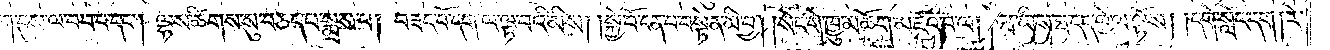དེ་གཉིས་ཀ་དུས་ལ་བབ་པ་དང༌། ལྷས་ཚིགས་སུ་བཅད་པ་སྨྲས་པ། བཟང་པོ་དག་ལ་ལྟ་བའི་མིས། །སྐྱེ་བོ་ངན་པ་བསྟེན་མི་བྱ། །སེང་གེ་ཁྱུ་མཆོག་མཛའ་བ་ལ། །ཝ་ཡིས་ཐ་དད་ཕྱེ་ལ་ལྟོས། །དགེ་སློང་དག །རེ་
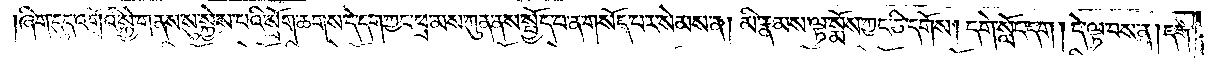ཞིག་དུད་འགྲོའི་སྐྱེ་གནས་སུ་སྐྱེས་པའི་སྲོག་ཆགས་དེ་དག་ཀྱང་ཕྲ་མས་ཀུན་ནས་སྤྱོད་པ་ན་གསོད་པར་སེམས་ན། མི་རྣམས་ལྟ་སྨོས་ཀྱང་ཅི་དགོས། དགེ་སློང་དག །དེ་ལྟ་བས་ན། དགེ་
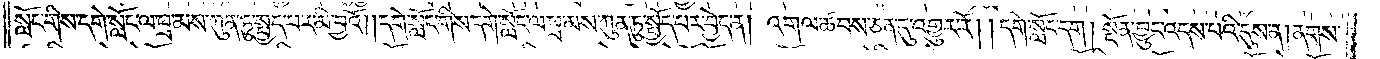སློང་གིས་དགེ་སློང་ལ་ཕྲ་མས་ཀུན་ཏུ་སྤྱད་པར་མི་བྱའོ། །དགེ་སློང་གིས་དགེ་སློང་ལ་ཕྲ་མས་ཀུན་ཏུ་སྤྱོད་པར་བྱེད་ན། འགལ་ཚབས་ཅན་དུ་འགྱུར་རོ། །དགེ་སློང་དག །སྔོན་བྱུང་འདས་པའི་དུས་ན། ནགས་
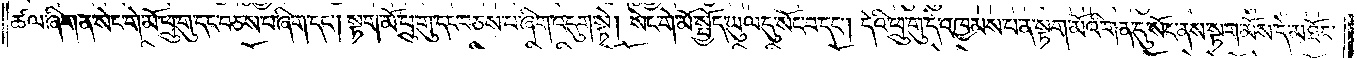ཚལ་ཞིག་ན་སེང་གེ་མོ་ཕྲུ་གུ་དང་བཅས་པ་ཞིག་དང༌། སྟག་མོ་ཕྲུ་གུ་དང་བཅས་པ་ཞིག་འདུག་སྟེ། སེང་གེ་མོ་སྤྱོད་ཡུལ་དུ་སོང་བ་དང༌། དེའི་ཕྲུ་གུ་དེ་འཁྱམས་པ་ན་སྟག་མོའི་གན་དུ་སོང་ནས་སྟག་མོས་དེ་མཐོང་
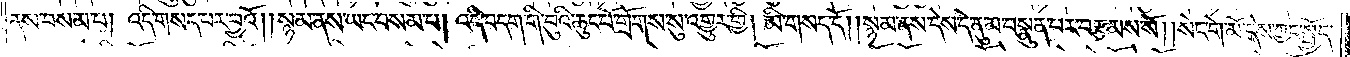ནས་བསམ་པ། འདི་གསད་པར་བྱའོ། །སྙམ་ནས་ཡང་བསམ་པ། འདི་བདག་གི་བུའི་ཆུང་པོ་གྲོགས་སུ་འགྱུར་གྱི། མི་གསད་དོ། །སྙམ་ནས་དེས་དེ་ནུ་མ་བསྣུན་པར་བརྩམས་སོ། །སེང་གེ་མོ་དེས་ཀྱང་སྤྱོད་
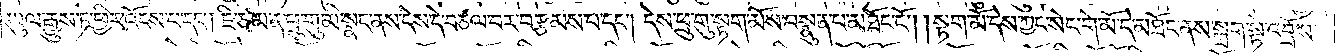ཡུལ་རྒྱུས་ཏེ་ཕྱིར་འོངས་པ་དང༌། ཇི་ཙམ་ན་ཕྲུ་གུ་མི་སྣང་ནས་དེས་དེ་བཙལ་བར་བརྩམས་པ་དང༌། དེས་ཕྲུ་གུ་སྟག་མོས་བསྣུན་པ་མཐོང་ངོ༌། །སྟག་མོ་དེས་ཀྱང་སེང་གེ་མོ་དེ་མཐོང་ནས་སྐྲག་སྟེ་འབྲོས་
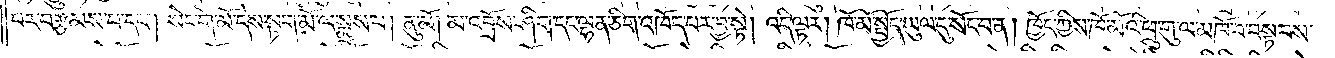པར་བརྩམས་པ་དང༌། སེང་གེ་མོ་དེས་སྟག་མོ་ལ་སྨྲས་པ། ནུ་མོ། མ་འབྲོས་ཤིག་དང་ལྷན་ཅིག་འཁོད་པར་བྱ་སྟེ། འདི་ལྟར། ཁོ་མོ་སྤྱོད་ཡུལ་དུ་སོང་བ་ན། ཁྱོད་ཀྱིས་ཁོ་མོའི་ཕྲུ་གུ་ལ་མཁོ་བ་བསྟབས་
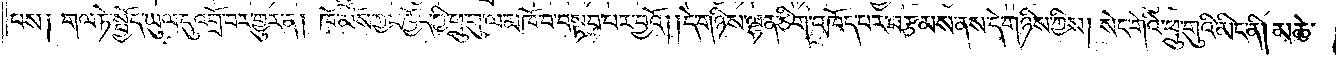པས༑ གལ་ཏེ་སྤྱོད་ཡུལ་དུ་འགྲོ་བར་གྱུར་ན། ཁོ་མོས་ཀྱང་ཁྱོད་ཀྱི་ཕྲུ་གུ་ལ་མཁོ་བ་བསྟབ་པར་བྱའོ། །དེ་གཉིས་ལྷན་ཅིག་འཁོད་པར་བརྩམས་ནས་དེ་གཉིས་ཀྱིས། སེང་གེའི་ཕྲུ་གུའི་མིང་ནི། མཆེ་
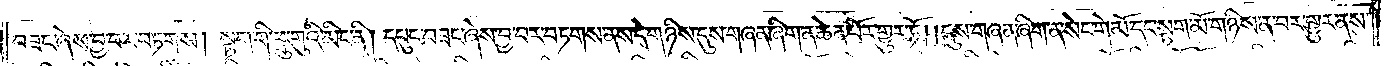བཟང་ཞེས་བྱ་བར་བཏགས། སྟག་གི་ཕྲུ་གུའི་མིང་ནི། དཔུང་བཟང་ཞེས་བྱ་བར་བཏགས་ནས་དེ་གཉིས་དུས་གཞན་ཞིག་ན་ཆེན་པོར་གྱུར་ཏོ། །དུས་གཞན་ཞིག་ན་སེང་གེ་མོ་དང་སྟག་མོ་གཉིས་ན་བར་གྱུར་ནས་
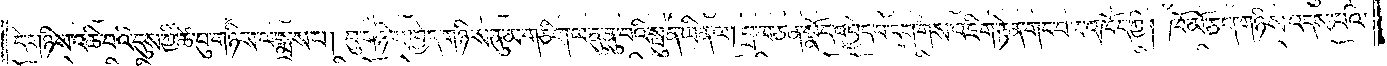དེ་གཉིས་འཆི་བའི་དུས་ཀྱི་ཚེ་བུ་གཉིས་ལ་སྨྲས་པ། བུ་གཉིས་ཁྱེད་གཉིས་ནུ་མ་གཅིག་ལ་ནུ་ནུ་བའི་སྤུན་ཡིན་ལ། ཕྲ་མ་ཅན་སྣོད་འབྱེད་པ་དག་གིས་འཇིག་རྟེན་གང་བར་འཁོད་ཀྱི། ཁོ་མོ་ཅག་གཉིས་འདས་པའི་
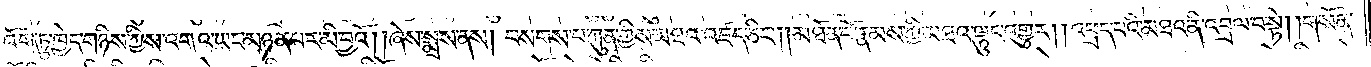འོག་ཏུ་ཁྱེད་གཉིས་ཀྱིས་འགའ་ཡང་མཉན་པར་མི་བྱའོ། །ཞེས་སྨྲས་ནས། བསགས་པ་ཀུན་གྱིས་མཐའ་འཛད་ཅིང༌། །མཐོན་པོ་རྣམས་ཀྱི་མཐའ་ལྟུང་འགྱུར། །འཕྲད་པའི་མཐའ་ནི་འབྲལ་བ་སྟེ། །གསོན་
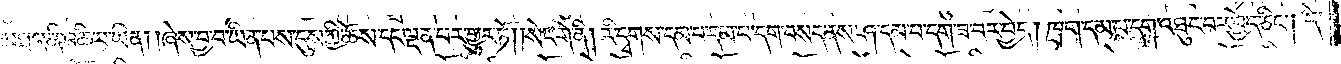པོའི་མཐའ་ནི་འཆི་བ་ཡིན། །ཞེས་བྱ་བ་ཡིན་པས་དུས་ཀྱི་ཆོས་དང་ལྡན་པར་གྱུར་ཏོ། །སེང་གེ་ནི། རི་དྭགས་དམ་པ་དམ་པ་དག་བསད་ནས་ཤ་དམ་པ་དག་ཟ་བར་བྱེད། ཁྲག་དམ་པ་དག་འཐུང་བར་བྱེད་ཅིང༌། དེ་
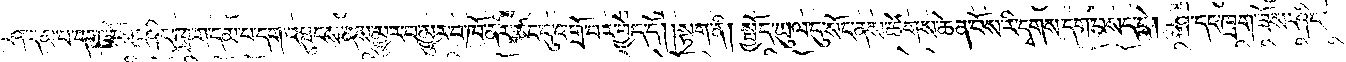ཤ་དམ་པ་དག་ཟོས་ཤིང་ཁྲག་དམ་པ་དག་འཐུངས་ནས་མྱུར་བ་མྱུར་བ་ཁོ་ནར་ཚང་དུ་འགྲོ་བར་བྱེད་དོ། །སྟག་ནི། སྤྱོད་ཡུལ་དུ་སོང་ནས་ཚེགས་ཆེན་པོས་རི་དྭགས་དག་བསད་དེ། ཤ་དང་ཁྲག་ཟོས་ཤིང་
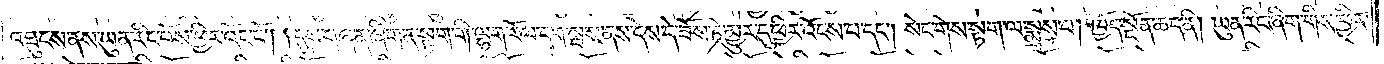འཐུངས་ནས་ཡུན་རིང་པོས་ཕྱིར་འོང་ངོ༌། །དུས་གཞན་ཞིག་ན་སྟག་གི་ལྷག་རོལ་དག་སྦས་ནས་དེས་དེ་ཟོས་ཏེ་མྱུར་དུ་ཕྱིར་འོངས་པ་དང༌། སེང་གེས་སྟག་ལ་སྨྲས་པ། ཁྱོད་སྔོན་ཆད་ནི། ཡུན་རིང་ཞིག་གིས་ཕྱིར་
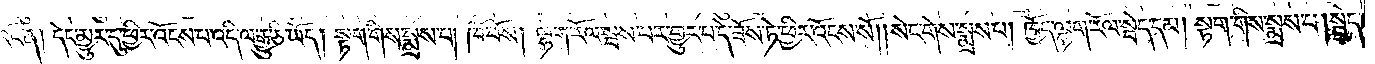འོང་ན། དེང་མྱུར་དུ་ཕྱིར་འོངས་པ་འདི་ལ་རྒྱུ་ཅི་ཡོད། སྟག་གིས་སྨྲས་པ། ཁོ་བོས། ལྷག་རོལ་སྦས་པར་གྱུར་པ་དེ་ཟོས་ཏེ་ཕྱིར་འོངས་སོ། །སེང་གེས་སྨྲས་པ། ཁྱོད་ལྷག་རོལ་སྦེད་དམ། སྟག་གིས་སྨྲས་པ། སྦེད་
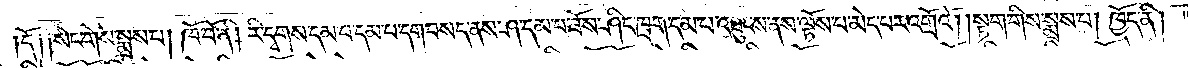དོ༑ ༑སེང་གེས་སྨྲས་པ། ཁོ་བོ་ནི། རི་དྭགས་དམ་པ་དམ་པ་དག་བསད་ནས་ཤ་དམ་པ་ཟོས་ཤིང་ཁྲག་དམ་པ་འཐུངས་ནས་ལྟོས་པ་མེད་པར་འགྲོའོ། །སྟག་གིས་སྨྲས་པ། ཁྱོད་ནི།
